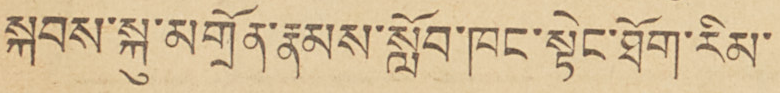སྐབས་སྐུ་མགྲོན་རྣམས་སློབ་ཁང་སྟེང་ཐོག་རིམ་
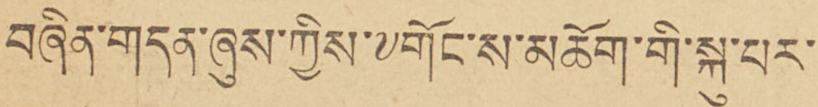བཞིན་གདན་ཞུས་ཀྱིས་༸གོང་ས་མཆོག་གི་སྐུ་པར་
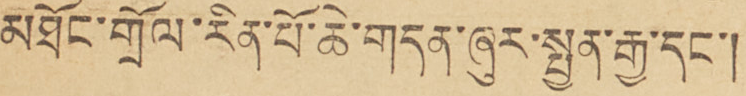མཐོང་གྲོལ་རིན་པོ་ཆེ་གདན་ཞུར་སྤྱན་རྒྱ་དང་།
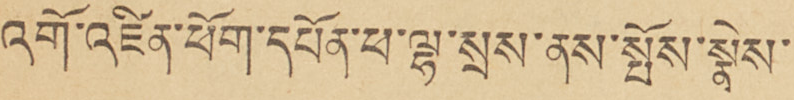འགོ་འཛིན་ཕོག་དཔོན་ཕ་ལྷ་སྲས་ནས་སྤོས་སྣེས་
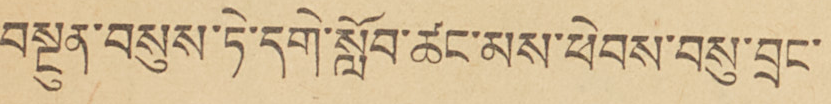བསྔུན་བསུས་ཏེ་དགེ་སློབ་ཚང་མས་ཕེབས་བསུ་བྲང་
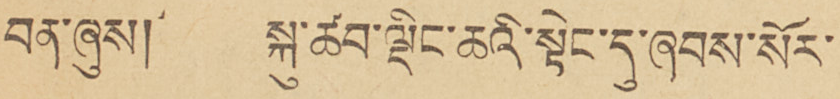བན་ཞུས། སྐུ་ཚབ་ལྡིང་ཆའི་སྟེང་དུ་ཞབས་སོར་
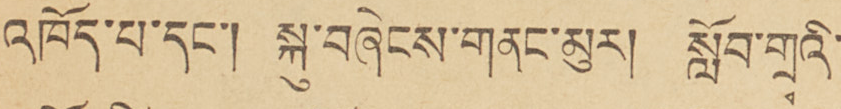འཁོད་པ་དང་། སྐུ་བཞེངས་གནང་མུར། སློབ་གྲྭའི་
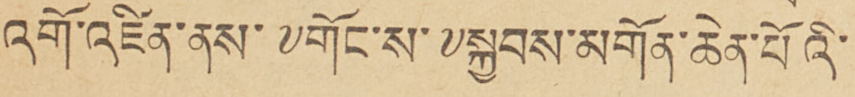འགོ་འཛིན་ནས་༸གོང་ས་༸སྐྱབས་མགོན་ཆེན་པོའི་
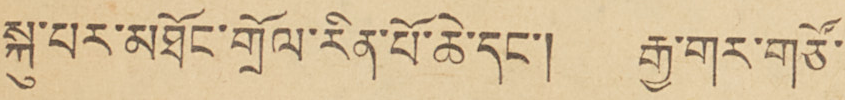སྐུ་པར་མཐོང་གྲོལ་རིན་པོ་ཆེ་དང་། རྒྱ་གར་གཙོ་
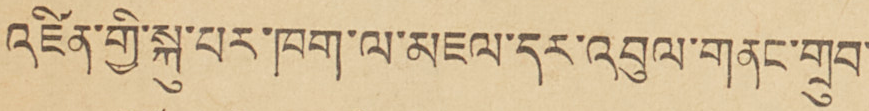འཛིན་གྱི་སྐུ་པར་ཁག་ལ་མཇལ་དར་འབུལ་གནང་གྲུབ་
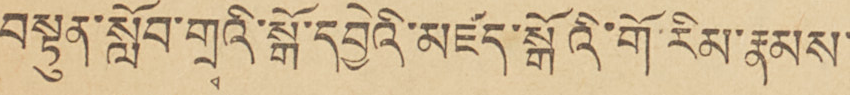བསྟུན་སློབ་གྲྭའི་སྒོ་དབྱེའི་མཛད་སྒོའི་གོ་རིམ་རྣམས་
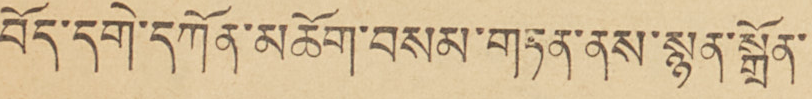བོད་དགེ་དཀོན་མཆོག་བསམ་གཏན་ནས་སྙན་སྒྲོན་
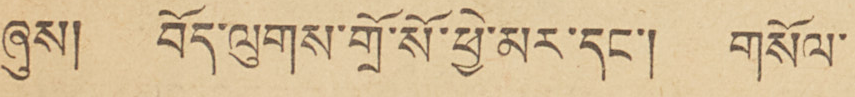ཞུས། བོད་ལུགས་གྲོ་སོ་ཕྱེ་མར་དང་། གསོལ་
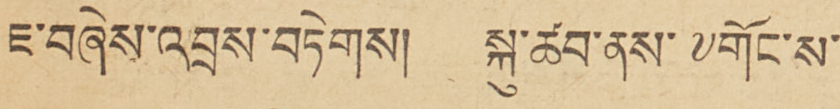ཇ་བཞེས་འབྲས་བཏེགས། སྐུ་ཚབ་ནས་༸གོང་ས་
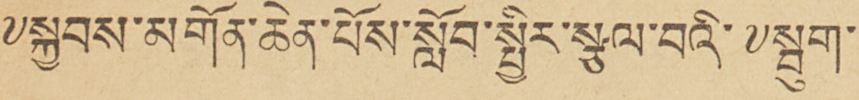༸སྐྱབས་མགོན་ཆེན་པོས་སློབ་སྤྱིར་སྩལ་པའི་༸སྦུག་
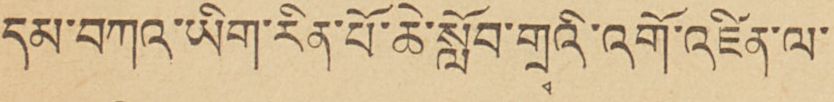དམ་བཀའ་ཡིག་རིན་པོ་ཆེ་སློབ་གྲྭའི་འགོ་འཛིན་ལ་
